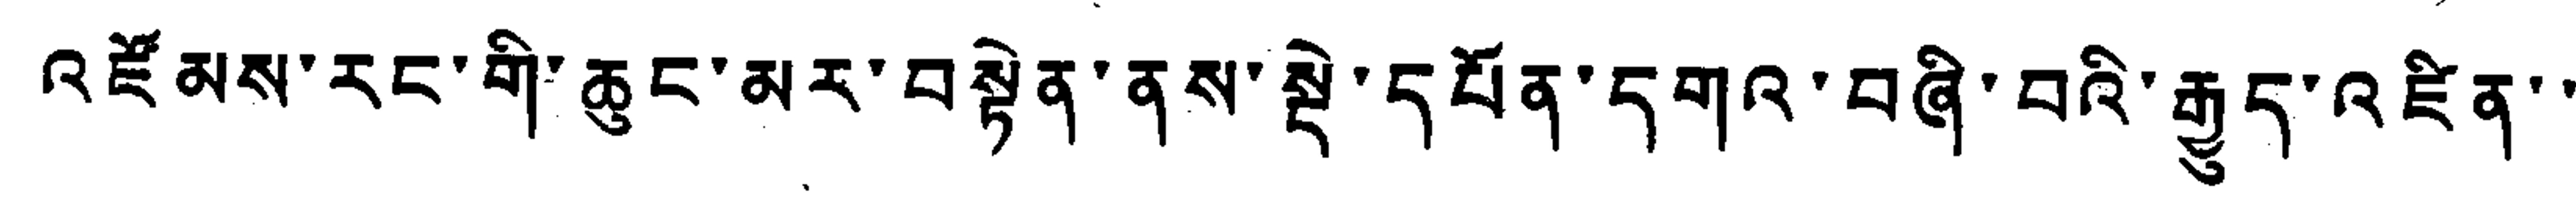འཛོམས་རང་གི་ཆུང་མར་བསྟེན་ནས་སྡེ་དཔོན་དགའ་བཞི་བའི་རྒྱུད་འཛིན་་
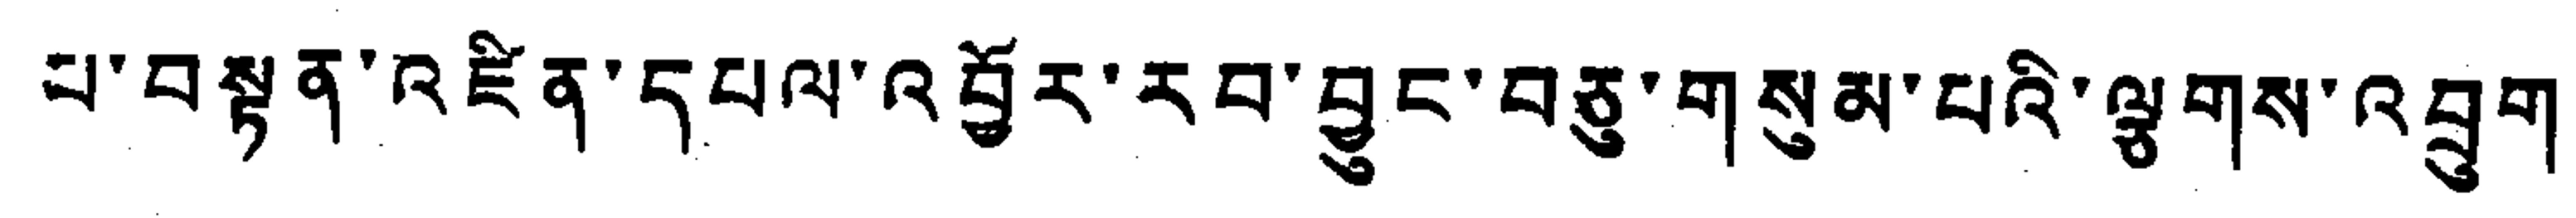པ་བསྟན་འཛིན་དཔལ་འབྱོར་རབ་བྱུང་བཅུ་གསུམ་པའི་ལྕགས་འབྲུག
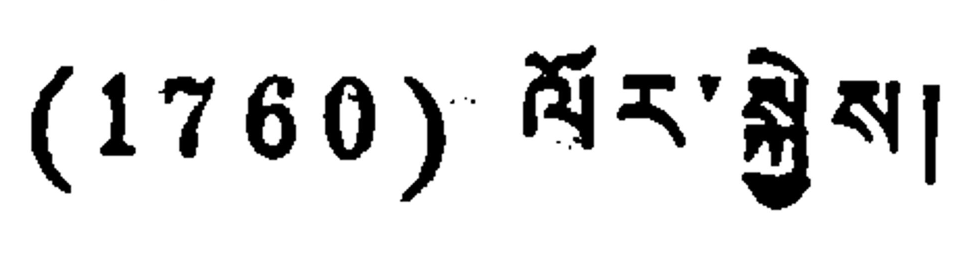(1760) ལོར་སྐྱེས།
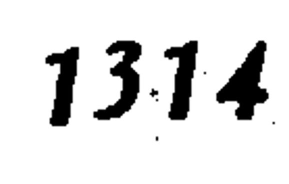1314
